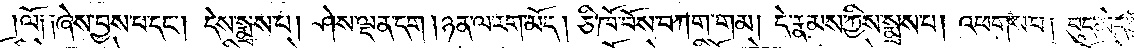ལོ༑ ༑ཞེས་བྱས་པ་དང༌། དེས་སྨྲས་པ། ཤེས་ལྡན་དག །ཉན་ལ་རག་མོད། ཅི་ཁོ་བོས་བཀག་གམ། དེ་རྣམས་ཀྱིས་སྨྲས་པ། འཕགས་པ། བུད་མེད་ཀྱི་
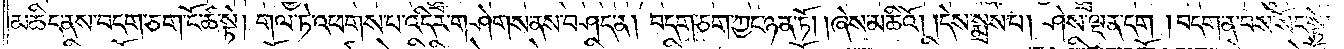མཆིད་ནས་བདག་ཅག་ངོ་ཚ་སྟེ། གལ་ཏེ་འཕགས་པ་འདིར་གཤེགས་ནས་བཤད་ན། བདག་ཅག་ཀྱང་ཉན་ཏོ། །ཞེས་མཆིའོ། །དེ་སྨྲས་པ། ཞེས་ལྡན་དག །བདག་ན་བས་སོང་སྟེ་
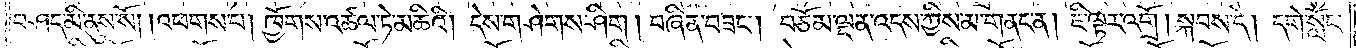བཤད་མི་ནུས་སོ། །འཕགས་པ། ཁྱོགས་འཚལ་ཏེ་མཆིའི། དེས་གཤེགས་ཤིག །བཞིན་བཟང༌། བཅོམ་ལྡན་འདས་ཀྱིས་མ་གནང་ན། ཇི་ལྟར་འགྲོ། སྐབས་དེ། དགེ་སློང་
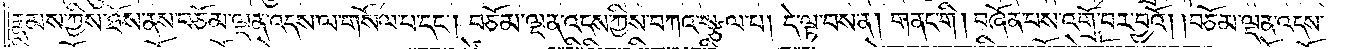རྣམས་ཀྱིས་ཐོས་ནས་བཅོམ་ལྡན་འདས་ལ་གསོལ་པ་དང༌། བཅོམ་ལྡན་འདས་ཀྱིས་བཀའ་སྩལ་པ། དེ་ལྟ་བས་ན། གནང་གི། བཞོན་པས་འགྲོ་བར་བྱའོ། །བཅོམ་ལྡན་འདས་
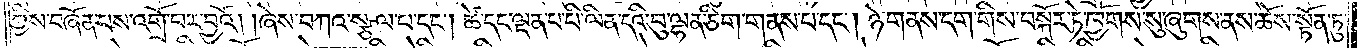ཀྱིས་བཞོན་པས་འགྲོ་བར་བྱའོ། །ཞེས་བཀའ་སྩལ་པ་དང༌། ཚེ་དང་ལྡན་པ་པི་ལིན་དའི་བུ་ལྷན་ཅིག་གནས་པ་དང༌། ཉེ་གནས་དག་གིས་བསྐོར་ཏེ་ཁྱོགས་སུ་ཞུགས་ནས་ཆོས་སྟོན་ཏུ་
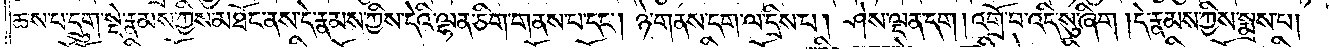ཆས་པ་དྲུག་སྡེ་རྣམས་ཀྱིས་མཐོང་ནས་དེ་རྣམས་ཀྱིས་དེའི་ལྷན་ཅིག་གནས་པ་དང༌། ཉེ་གནས་དག་ལ་དྲིས་པ། ཤེས་ལྡན་དག །འགྲོ་བ་འདི་སུ་ཞིག །དེ་རྣམས་ཀྱིས་སྨྲས་པ།
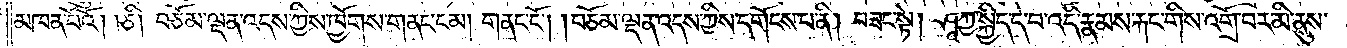མཁན་པོའོ། །ཅི། བཅོམ་ལྡན་འདས་ཀྱིས་ཁྱོགས་གནང་ངམ། གནང་ངོ༌། །བཅོམ་ལྡན་འདས་ཀྱིས་དགོངས་པ་ནི། བཟང་སྟེ། ཤཱཀྱ་སྐྱིད་དེ་བ་འདི་རྣམས་རྐང་གིས་འགྲོ་བར་མི་ནུས་
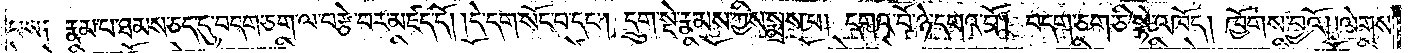པས༑ རྣམ་པ་ཐམས་ཅད་དུ་བདག་ཅག་ལ་བརྩེ་བར་མཛད་དོ། །དེ་དག་སོང་བ་དང༌། དྲུག་སྡེ་རྣམས་ཀྱིས་སྨྲས་པ། དགའ་བོ་ཉེ་དགའ་བོ། བདག་ཅག་ཅི་སྟེ་འཁོད། ཁྱོགས་བྱའོ། །ལེགས་
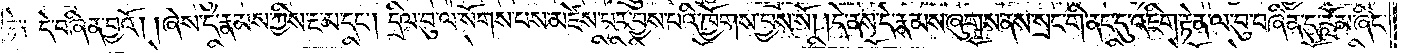ཏེ༑ དེ་བཞིན་བྱའོ། །ཞེས་དེ་རྣམས་ཀྱིས་རྔ་མ་དང༌། དྲིལ་བུ་ལ་སོགས་པས་མཛེས་པར་བྱས་པའི་ཁྱོགས་བྱས་སོ། །དེ་ནས་དེ་རྣམས་ཞུགས་ནས་སྲང་གི་ནང་དུ་འཇུག་རྟེན་ལ་བུ་བཞིན་དུ་རློམ་ཞིང་
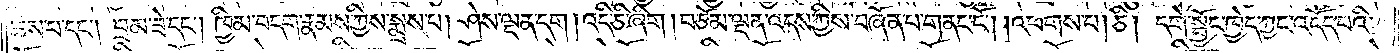ཆས་པ་དང༌། བྲམ་ཟེ་དང༌། ཁྱིམ་བདག་རྣམས་ཀྱིས་སྨྲས་པ། ཤེས་ལྡན་དག །འདི་ཅི་ཞིག །བཅོམ་ལྡན་འདས་ཀྱིས་བཞོན་པ་གནང་ངོ༌། །འཕགས་པ། ཅི། དགེ་སྦྱོང་ཁྱེད་ཀྱང་འདོད་པའི་
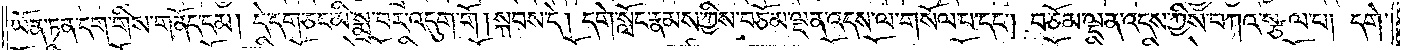ཡོན་ཏན་དག་གིས་གནོད་དམ། དེ་དག་ཅང་མི་སྨྲ་བར་འདུག་གོ །སྐབས་དེ། དགེ་སློང་རྣམས་ཀྱིས་བཅོམ་ལྡན་འདས་ལ་གསོལ་པ་དང༌། བཅོམ་ལྡན་འདས་ཀྱིས་བཀའ་སྩལ་པ། དགེ་
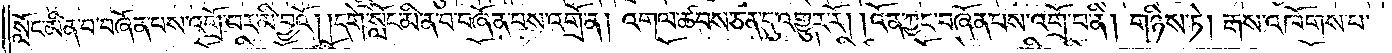སློང་མིན་པ་བཞོན་པས་འགྲོ་བར་མི་བྱའོ། །དགེ་སློང་མི་ན་བ་བཞོན་པས་འགྲོ་ན། འགལ་ཚབས་ཅན་དུ་འགྱུར་རོ། །འོན་ཀྱང་བཞོན་པས་འགྲོ་བ་ནི། གཉིས་ཏེ། རྒས་འཁོགས་པ་
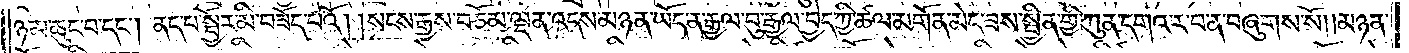ཉམ་ཆུང་བ་དང༌། ནད་པ་སྦྱོར་མི་བཟོད་པའོ། །སངས་རྒྱས་བཅོམ་ལྡན་འདས་མཉན་ཡོད་ན་རྒྱལ་བུ་རྒྱལ་བྱེད་ཀྱི་ཚལ་མགོན་མེད་ཟས་སྦྱིན་གྱི་ཀུན་དགའ་ར་བ་ན་བཞུགས་སོ། །མཉན་
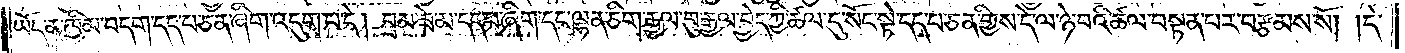ཡོད་ན་ཁྱིམ་བདག་དད་པ་ཅན་ཞིག་འདུག་པ་དེ། བྲམ་ཟེ་མ་དད་པ་ཞིག་དང་ལྷན་ཅིག་རྒྱལ་བུ་རྒྱལ་བྱེད་ཀྱི་ཚལ་དུ་སོང་སྟེ་དད་པ་ཅན་གྱིས་དེ་ལ་ཉེ་བའི་ཚལ་བསྟན་པར་བརྩམས་སོ། །དེ་
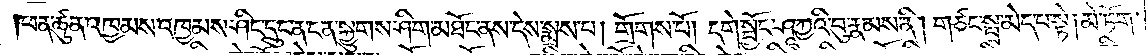ཕན་ཚུན་འཁྱམས་འཁྱམས་ཤིང་དྲུང་ན་ངན་སྐྱུགས་ཤིག་མཐོང་ནས་དེས་སྨྲས་པ། གྲོགས་པོ། དགེ་སྦྱོང་ཤཱཀྱའི་བུ་རྣམས་ནི། གཙང་སྤྲ་མེད་པ་སྟེ། མེ་ཏོག་
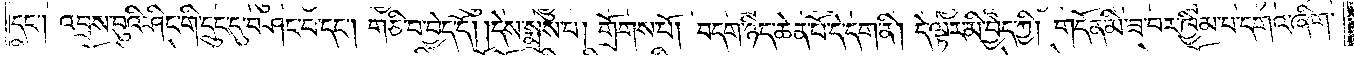དང༌། འབྲས་བུའི་ཤིང་གི་དྲུང་དུ་བཤང་བ་དང༌། གཅི་བ་བྱེད་དོ། །དེས་སྨྲས་པ། གྲོགས་པོ། བདག་ཉིད་ཆེན་པོ་དེ་དག་ནི། དེ་ལྟར་མི་བྱེད་ཀྱི། གདོན་མི་ཟ་བར་ཁྱིམ་པ་དགའ་ཞིག་
